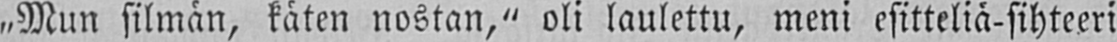„Mun silmän, käten nostan," oli laulettu, meni esitteliä-sihteeri
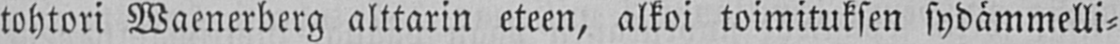tohtori Waenerberg alttarin eteen, alkoi toimituksen sydämmelli-
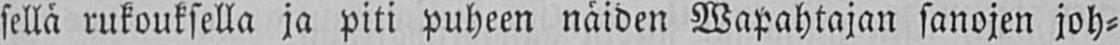sellä rukouksella ja piti puheen näiden Wapahtajan sanojen joh-
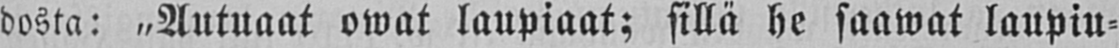dosta: „Autuaat owat laupiaat; sillä he saawat laupiu-
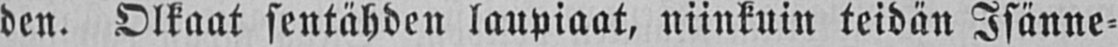den. Olkaat sentähden laupiaat, niinkuin teidän Isänne-
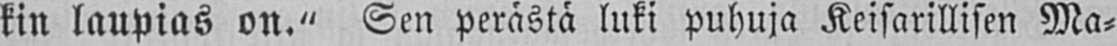kin laupias on." Sen perästä luki puhuja Keisarillisen Ma-
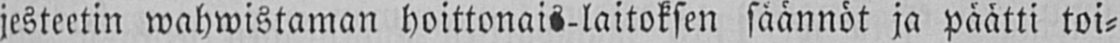jesteetin wahwistaman hoittonais-laitoksen säännöt ja päätti toi-
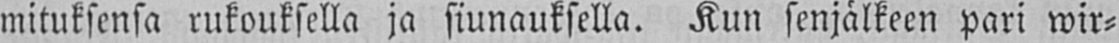mituksensa rukouksella ja siunauksella. Kun senjälkeen pari wir-
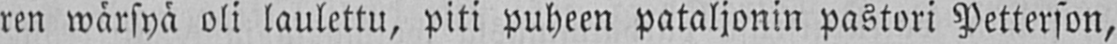ren wärsyä oli laulettu, piti puheen pataljonin pastori Petterson,
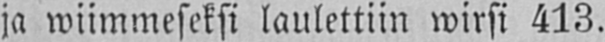ja wiimmeseksi laulettiin wirsi 413.
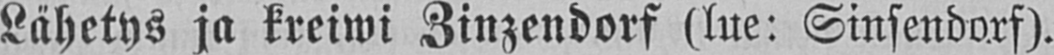Lähetys ja kreiwi Zinzendorf (lue: Sinsendorf).
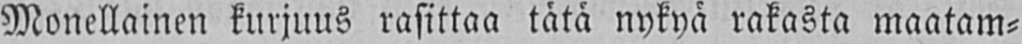Monellainen kurjuus rasittaa tätä nykyä rakasta maatam-
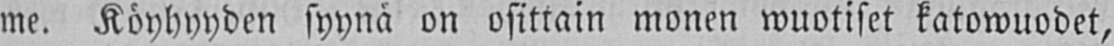me. Köyhyyden syynä on osittain monen wuotiset katowuodet,
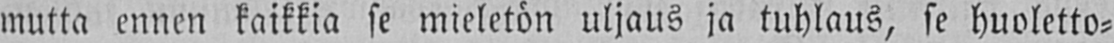mutta ennen kaikkia se mieletön uljaus ja tuhlaus, se huoletto-
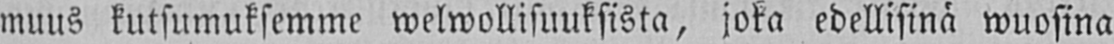muus kutsumuksemme welwollisuuksista, joka edellisinä wuosina
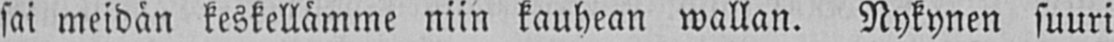sai meidän keskellämme niin kauhean wallan. Nykynen suuri
